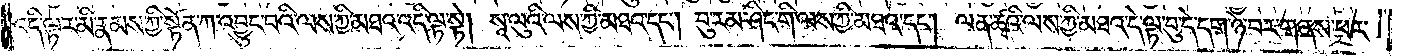འདི་ལྟར་མི་རྣམས་ཀྱི་སྟོན་ཀ་འབྱུང་བའི་ལས་ཀྱི་མཐའ་འདི་ལྟ་སྟེ། སཱ་ལུའི་ལས་ཀྱི་མཐའ་དང༌། བུ་རམ་ཤིང་གི་ལས་ཀྱི་མཐའ་དང༌། ལན་ཚྭའི་ལས་ཀྱི་མཐའ་དེ་ལྟ་བུ་དེ་ལྟ་བུ་དེ་དག་ཉེ་བར་གནས་པར་
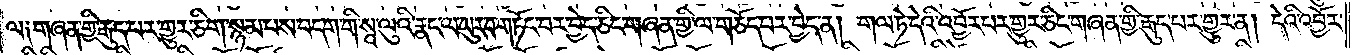ལ༑ གཞན་གྱི་རྒུད་པར་གྱུར་ཅིག་སྙམ་པས་བདག་གི་སཱ་ལུའི་རྣང་ལ་ཡུར་བ་གཏོང་བར་བྱེད་ཅིང་གཞན་གྱི་ལ་གཅོད་པར་བྱེད་ན། གལ་ཏེ་དེའི་འབྱོར་པར་གྱུར་ཅིང་གཞན་གྱི་རྒུད་པར་གྱུར་ན། དེའི་འབྱོར་
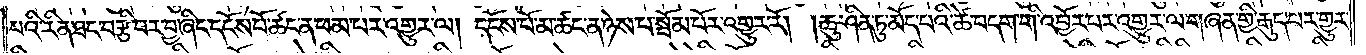པའི་རིན་ཐང་བརྩི་བར་བྱ་ཞིང་དངོས་པོ་ཚང་ན་ཕམ་པར་འགྱུར་ལ། དངོས་པོ་མ་ཚང་ན་ཉེས་པ་སྦོམ་པོར་འགྱུར་རོ། །ཆུ་ཤིན་ཏུ་མོད་པའི་ཚེ་བདག་གི་འབྱོར་བར་འགྱུར་ལ་གཞན་གྱི་རྒུད་པར་གྱུར་
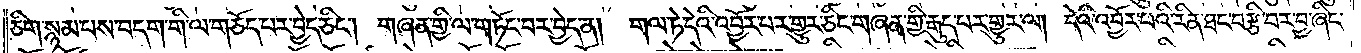ཅིག་སྙམ་པས་བདག་གི་ལ་གཅོད་པར་བྱེད་ཅིང༌། གཞན་གྱི་ལ་གཏོང་བར་བྱེད་ན། གལ་ཏེ་དེའི་འབྱོར་པར་གྱུར་ཅིང་གཞན་གྱི་རྒུད་པར་གྱུར་ལ། དེའི་འབྱོར་བའི་རིན་ཐང་བརྩི་བར་བྱ་ཞིང་
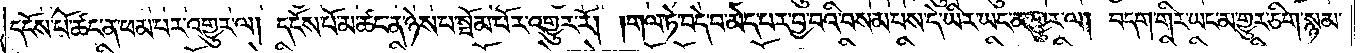དངོས་པོ་ཚང་ན་ཕམ་པར་འགྱུར་ལ། དངོས་པོ་མ་ཚང་ན་ཉེས་པ་སྦོམ་པོར་འགྱུར་རོ། །གལ་ཏེ་བདེ་བ་མེད་པར་བྱ་བའི་བསམ་པས་དེ་ཡིར་ཡང་མ་གྱུར་ལ། བདག་གིར་ཡང་མ་གྱུར་ཅིག་སྙམ་
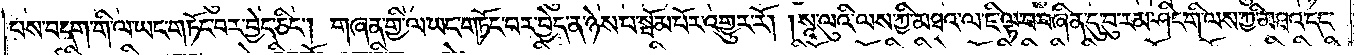པས་བདག་གི་ལ་ཡང་གཏོང་བར་བྱེད་ཅིང༌། གཞན་གྱི་ལ་ཡང་གཏོང་བར་བྱེད་ན་ཉེས་པ་སྦོམ་པོར་འགྱུར་རོ། །སཱ་ལུའི་ལས་ཀྱི་མཐའ་ལ་ཇི་ལྟ་བ་བཞིན་དུ་བུ་རམ་ཤིང་གི་ལས་ཀྱི་མཐའ་དང་
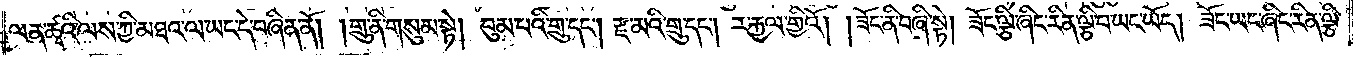ལན་ཚྭའི་ལས་ཀྱི་མཐའ་ལ་ཡང་དེ་བཞིན་ནོ། །གྲུ་ནི་གསུམ་སྟེ། བུམ་པའི་གྲུ་དང༌། རྫ་མའི་གྲུ་དང༌། ར་རྐྱལ་གྱིའོ། །ཟོང་ནི་བཞི་སྟེ། ཟོང་ལྕི་ཞིང་རིན་ལྕི་བ་ཡང་ཡོད། ཟོང་ཡང་ཞིང་རིན་ལྕི་
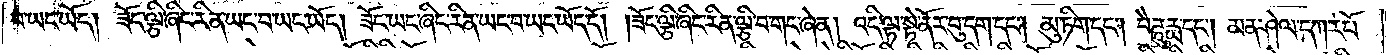བ་ཡང་ཡོད། ཟོང་ལྕི་ཞིང་རིན་ཡང་བ་ཡང་ཡོད། ཟོང་ཡང་ཞིང་རིན་ཡང་བ་ཡང་ཡོད་དོ། །ཟོང་ལྕི་ཞིང་རིན་ལྕི་བ་གང་ཞེ་ན། འདི་ལྟ་སྟེ་ནོར་བུ་དག་དང༌། མུ་ཏིག་དང༌། བཻ་ཌཱུཪྻ་དང༌། མན་ཤེལ་དཀར་པོ་
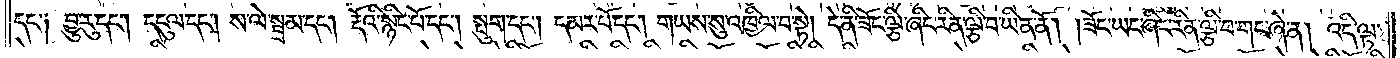དང་༑ བྱུ་རུ་དང༌། དངུལ་དང༌། ས་ལེ་སྦྲམ་དང༌། རྡོའི་སྙིང་པོ་དང༌། སྤུག་དང༌། དམར་པོ་དང༌། གཡས་སུ་འཁྱིལ་བ་སྟེ། དེ་ནི་ཟོང་ལྕི་ཞིང་རིན་ལྕི་བ་ཡིན་ནོ། །ཟོང་ཡང་ཞིང་རིན་ལྕི་བ་གང་ཞེ་ན། འདི་ལྟ་
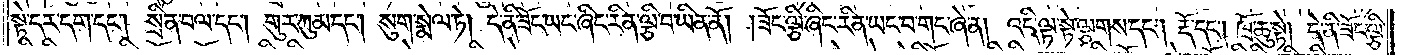སྟེ་དར་དག་དང༌། སྲིན་བལ་དང༌། གུར་ཀུམ་དང༌། སུག་སྨེལ་ཏེ། དེ་ནི་ཟོང་ཡང་ཞིང་རིན་ལྕི་བ་ཡིན་ནོ། །ཟོང་ལྕི་ཞིང་རིན་ཡང་བ་གང་ཞེ་ན། འདི་ལྟ་སྟེ་ལྕགས་དང༌། རྡོ་དང༌། ཁྲོ་ཆུ་སྟེ། དེ་ནི་ཟོང་ལྕི་
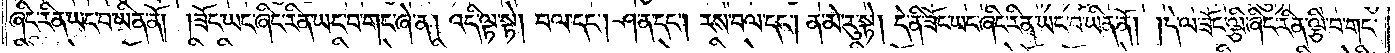ཞིང་རིན་ཡང་བ་ཡིན་ནོ། །ཟོང་ཡང་ཞིང་རིན་ཡང་བ་གང་ཞེ་ན། འདི་ལྟ་སྟེ། བལ་དང༌། ཤ་ན་དང༌། རས་བལ་དང༌། ན་མེ་རུ་སྟེ། དེ་ནི་ཟོང་ཡང་ཞིང་རིན་ཡང་བ་ཡིན་ནོ། །དེ་ལ་ཟོང་ལྕི་ཞིང་རིན་ལྕི་བ་གང་
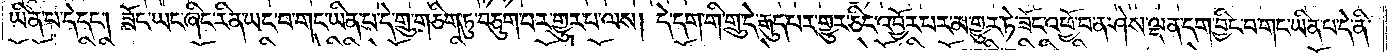ཡིན་པ་དེ་དང༌། ཟོང་ཡང་ཞིང་རིན་ཡང་བ་གང་ཡིན་པ་དེ་གྲུ་གཅིག་ཏུ་བཅུག་པར་གྱུར་པ་ལས། དེ་དག་གི་གྲུ་དེ་རྒུད་པར་གྱུར་ཅིང་འབྱོར་པར་མ་གྱུར་ཏེ་ཟོང་འཕྱོ་བ་ན་ཤེས་ལྡན་དག་བྱིང་བ་གང་ཡིན་པ་དེ་ནི་
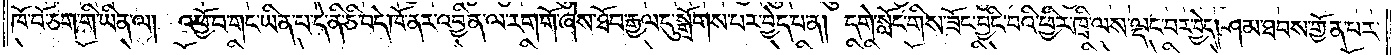ཁོ་བོ་ཅག་གི་ཡིན་ལ། འཕྱོ་བ་གང་ཡིན་པ་དེ་ནི་ཅི་བདེ་ཁོ་ནར་འབྱིན་ལ་རག་གོ་ཞེས་ཐོབ་རྒྱལ་དུ་སྒྲོགས་པར་བྱེད་པ་ན། དགེ་སློང་གིས་ཟོང་བྱིང་བའི་ཕྱིར་ཁྲི་ལས་ལྡང་བར་བྱེད། ཤམ་ཐབས་གྱོན་པར་
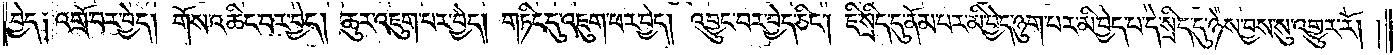བྱེད༑ འགྲོ་བར་བྱེད། གོས་འཆིང་བར་བྱེད། ཆུར་འཇུག་པར་བྱེད། གཏིང་དུ་འཇུག་ཕར་བྱེད། འབྱུང་བར་བྱེད་ཅིང༌། ཇི་སྲིད་དུ་ནོམ་པར་མི་བྱེད་ཉུག་པར་མི་བྱེད་པ་དེ་སྲིད་དུ་ཉེས་བྱས་སུ་འགྱུར་རོ། །
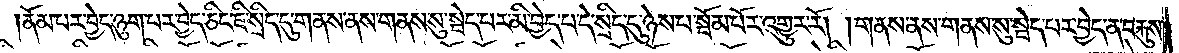ནོམ་པར་བྱེད་ཉུག་པར་བྱེད་ཅིང་ཇི་སྲིད་དུ་གནས་ནས་གནས་སུ་སྦེད་པར་མི་བྱེད་པ་དེ་སྲིད་དུ་ཉེས་པ་སྦོམ་པོར་འགྱུར་རོ། །གནས་ནས་གནས་སུ་སྦེད་པར་བྱེད་ན་བརྐུས་
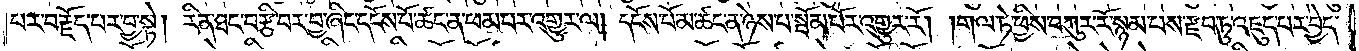པར་བརྗོད་པར་བྱ་སྟེ། རིན་ཐང་བརྩི་བར་བྱ་ཞིང་དངོས་པོ་ཚང་ན་ཕམ་པར་འགྱུར་ལ། དངོས་པོ་མ་ཚང་ན་ཉེས་པ་སྦོམ་པོར་འགྱུར་རོ། །གལ་ཏེ་ཕྱིས་བཀུར་རོ་སྙམ་པས་རྫབ་ཏུ་འཇུད་པར་བྱེད་
